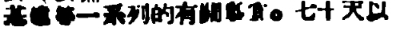基建等一系列的有關事宜。七十天以
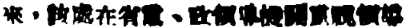來，該處在省黨、政領導機關重視領導
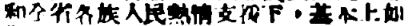和全省各族人民熱情支援下，基本上如
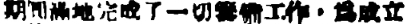期圓滿地完成了一切籌備工作，爲成立
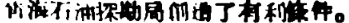靑海石油探勘局創造了有利條件。
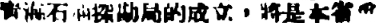靑海石油探勘局的成立，將是本省重
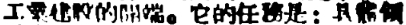工業建設的開端。它的任務是：具體領
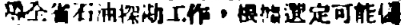導全省石油探勘工作，根據選定可能儲
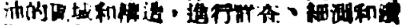油的區域和構造，進行詳查、細測和鑽
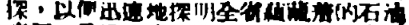探，以便迅速地探明全省蘊藏着的石油
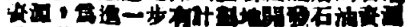資源，爲進一步有計劃地開發石油資源
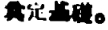奠定基礎。
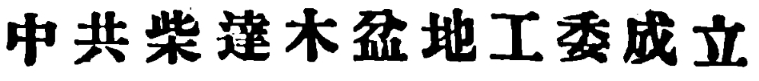中共柴達木盆地工委成立
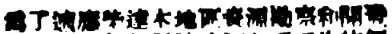爲了適應柴達木地區資源勘察和開發
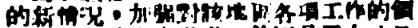的新情況，加強對該地區各項工作的領
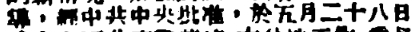導，經中共中央批准，於五月二十八日
